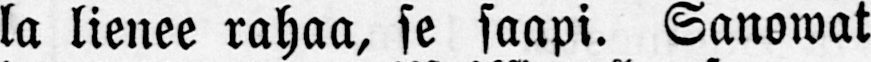la lienee rahaa, se saapi. Sanowat
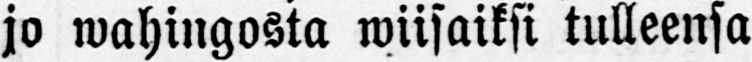jo wahingosta wiisaiksi tulleensa
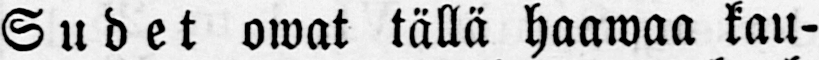Sudet owat tällä haawaa kau-
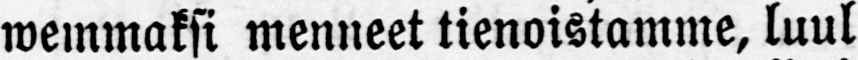wemmaksi menneet tienoistamme, luul
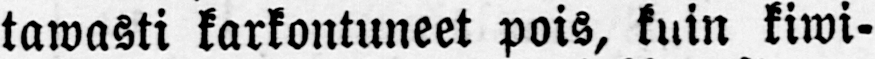tawasti karkontuneet pois, kuin kiwi-
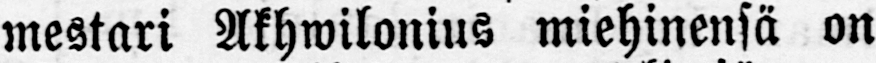mestari Akhwilonius miehinensä on
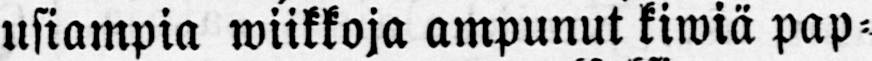usiampia wiikkoja ampunut kiwiä pap-
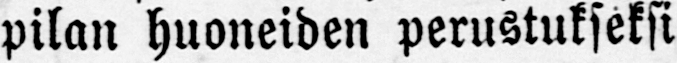pilan huoneiden perustukseksi
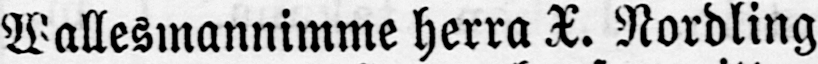Wallesmannimme herra X. Nordling
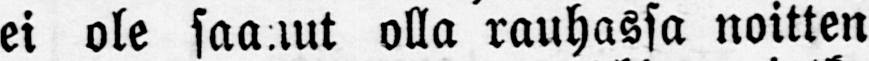ei ole saanut olla rauhassa noitten
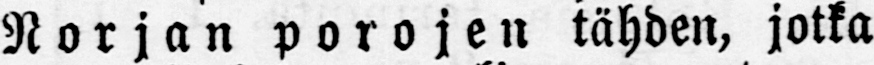Norjan porojen tähden, jotka
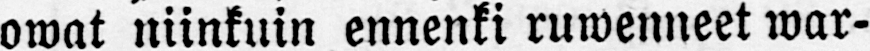owat niinkuin ennenki ruwenneet war-
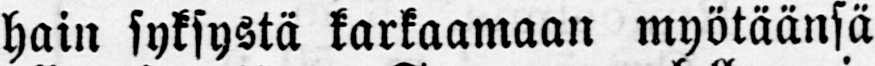hain syksystä karkaamaan myötäänsä
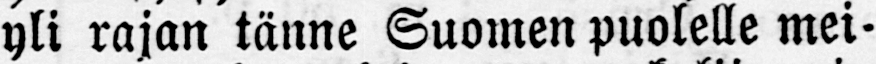yli rajan tänne Suomen puolelle mei-
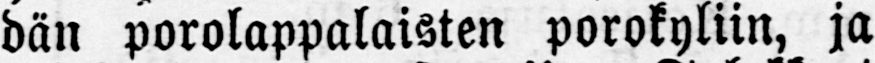dän porolappalaisten porokyliin, ja
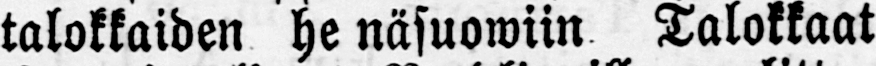talokkaiden he näsuowiin Tulokkaat
